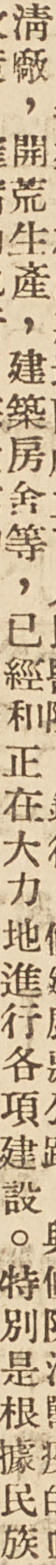清廠，開荒生產，建築房舍等，已經和正在大力地進行各項建設。特別是根據民族
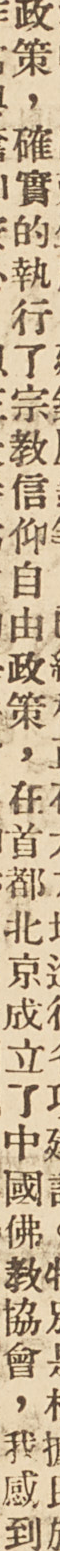政策，確實的執行了宗教信仰自由政策，在首都北京成立了中國佛教協會，我感到
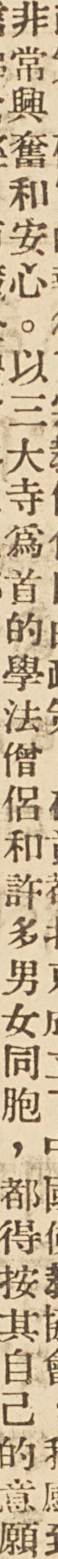非常興奮和安心。以三大寺爲首的學法僧侶和許多男女同胞，都得按其自己的意願
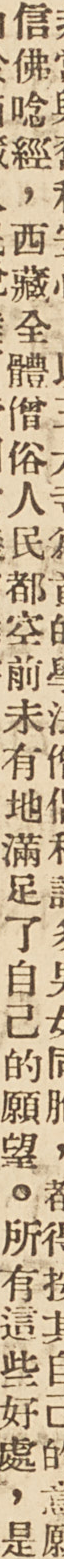信佛唸經，西藏全體僧俗人民都空前未有地滿足了自己的願望。所有這些好處，是
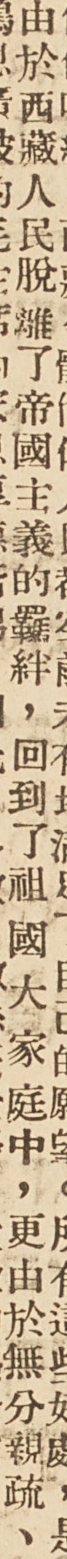由於西藏人民脫離了帝國主義的羈絆，回到了祖國大家庭中，更由於無分親疏、
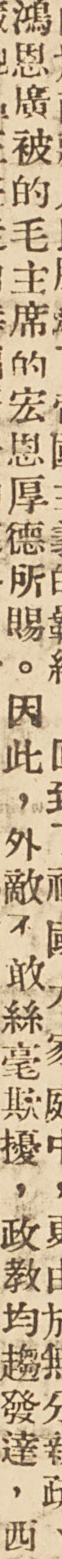鴻恩廣被的毛主席的宏恩厚德所賜。因此，外敵不敢絲毫欺擾，政教均趨發達，西
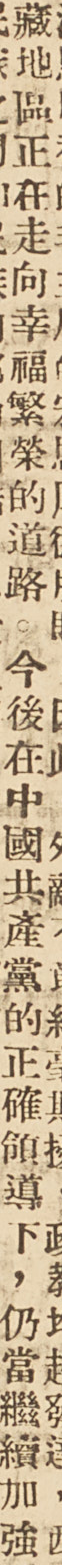藏地區正在走向幸福繁榮的道路。今後在中國共產黨的正確領導下，仍當繼續加強
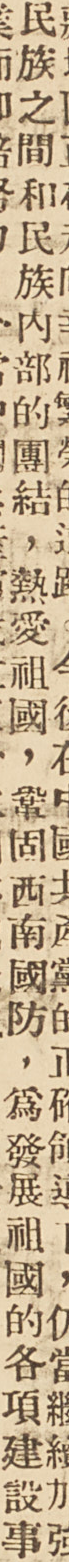民族之間和民族內部的團結，熱愛祖國，鞏固西南國防，爲發展祖國的各項建設事
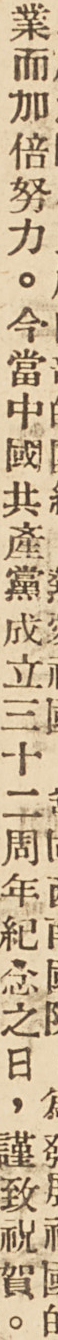業而加倍努力。今當中國共產黨成立三十二周年紀念之日，謹致祝賀。
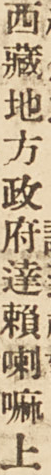西藏地方政府達賴喇嘛上
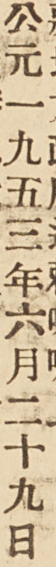公元一九五三年六月二十九日
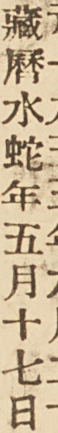藏曆水蛇年五月十七日
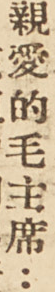親愛的毛主席：
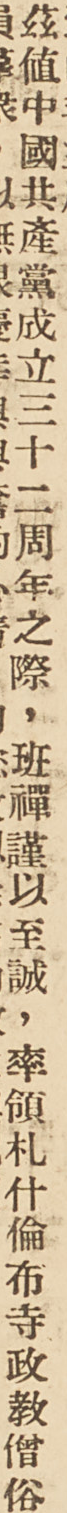茲値中國共產黨成立三十二周年之際，班禪謹以至誠，率領札什倫布寺政教僧俗
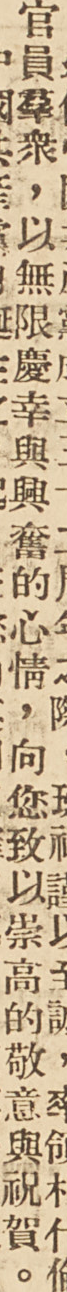官員羣衆，以無限慶幸與興奮的心情，向您致以崇高的敬意與祝賀。
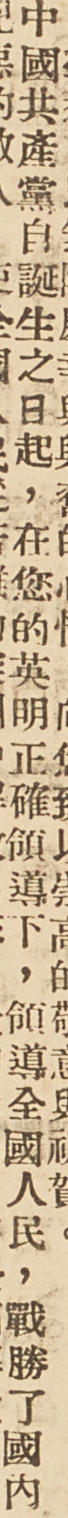中國共產黨自誕生之日起，在您的英明正確領導下，領導全國人民，戰勝了國內
